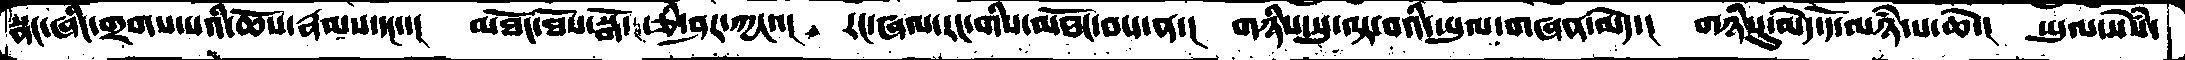སྣང་ཞིང་གྲགས་པའི་ཆོས་རྣམས་དང་་།  མཐོང་ཐོས་སྒོ་ང་ཅི་ཤར་ཀྱང་་།  རང་ཞལ་རང་གིས་མཐོང་བས་ན་།  གཉིས་སུ་ལྟ་བའི་ཡུལ་གཞན་མེད་།  གཉིསུ་མེད་དོ་མཉཾ་པ་ཆེ་།  ཡུལ་སེཾས་
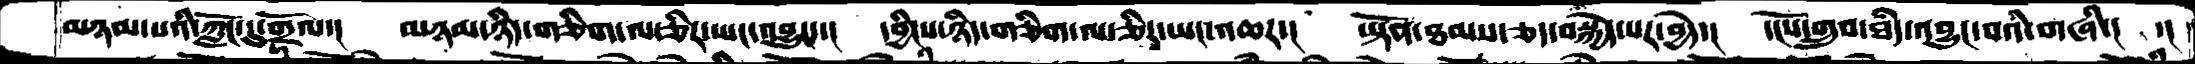མཉམ་པའི་ཀློང་དུ་གྲོལ་།  མཉམ་ཉིད་གཅིག་ལ་ཅིར་ཡང་འབྱུང་་།  དབྱིངས་ཉིད་གཅིག་ལ་ཅིར་ཡང་འཆར་།  ཡྟོན་ཐམས་ཅད་བསྐྱེད་པར་བྱེད་།  དངོས་གྲུབ་ཐཾད་འབྱུང་བའི་གཞི་།  ་།
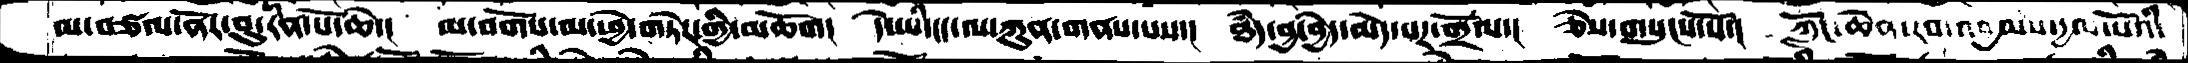མ་བཙལ་ནོར་བུ་རིན་པོ་ཆེ་།  མ་བགོས་མ་ཕྱེ་གཏེར་གྱི་མཆོག།  དེ་ཡི་ངང་ལ་ཀུན་གནས་པས་།  ཐཾད་བྱ་བྱེད་མེད་པར་གྲོལ་།  ཅེས་གསུངས་སོ་།  ཀློང་ཆེན་རབ་འབྱམས་དྱལ་པོའི་
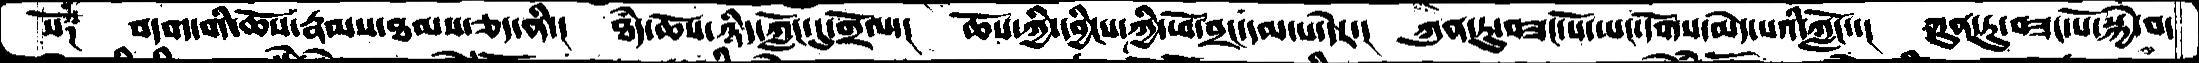སོ༑   བདག་གི་ཆོས་རྣམས་ཐམས་ཅད་ནི་།  ཐཾད་ཆོས་ཉིད་ཀློང་དུ་གྲོལ་།  ཆོས་ཀྱི་དབྱིངས་ཀྱི་ཕོ་བྲང་དམ་པ་དེར་།  ཀུན་ཏུ་བཟང་པོ་ཡང་དོགས་མེད་པའི་ཀློང་་།   ཀུན་ཏུ་བཟང་པོ་སྐྱེ་བ་
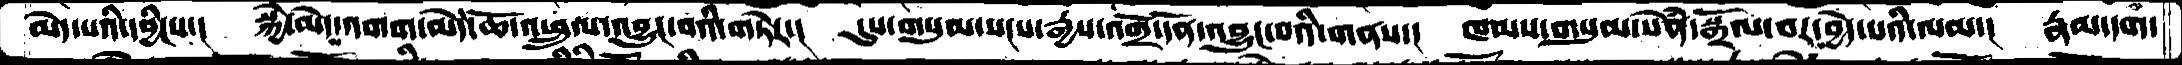མེད་པའི་དབྱིངས་།  སྐྱེ་མེད་འགག་མེད་ཆོ་འཕྲུལ་འབྱུང་བའི་གཏེར་།  དུས་གསུམ་སངས་རྒྱས་འགྲོ་དོན་འབྱུང་བའི་གནས་།  ཁམས་གསུམ་སེཾན་སྒྲོལ་བར་བྱེད་པའི་ལམ་།  རྣམ་དག་
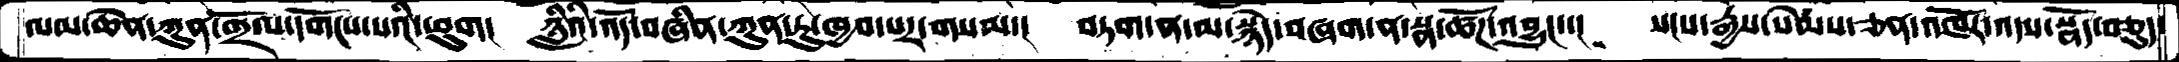ལམ་ཆེན་ཀུན་གྲོལ་དགོངས་པའི་ཕུག།  ཉླིའི་འོད་བཞིན་ཀུན་ཏུ་ཁྱབ་པར་གསལ་།  བཏག་ན་མ་སྙེད་བཞག་ན་སྣ་ཚོཌ་འབྱུང་་།  སངས་རྒྱས་སེམས་ཅན་འཁོར་འདས་སྣོད་བཅུད་
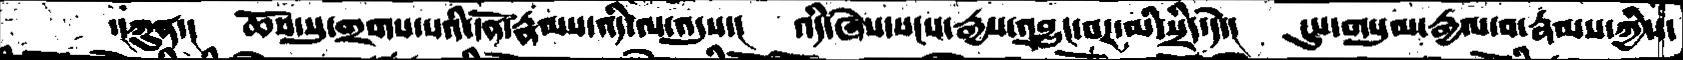་།ཀུན་།  ཆོས་སུ་གྲགས་པའི་དོན་རྣམས་འདི་ལ་འདུས་།  འདི་ཞེས་སངས་རྒྱས་འབྱུང་བར་མི་སྲིད་དེ་།  དུས་གསུམ་རྒྱལ་བ་རྣམས་ཀྱིས་
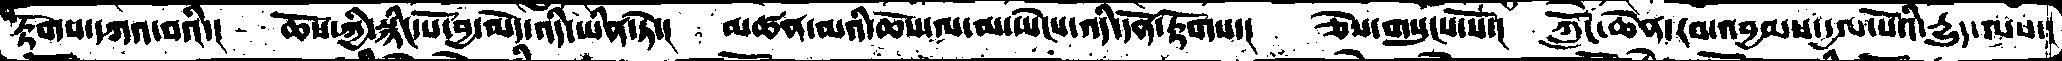རྟོགས་དཀའ་བའི་།  ཆོས་ཀྱི་སྙིང་པོ་བྱ་མེད་འདི་ཡིན་ཏེ་།  མཚན་མའི་ཆོས་ལ་མ་ཡེངས་འདི་དོན་རྟོགས་།  ཅེས་གསུངས་སོ་།  ཀློང་ཆེན་རབ་འབྱམས་དྱལ་པོའི་དྱུད་ལས་།
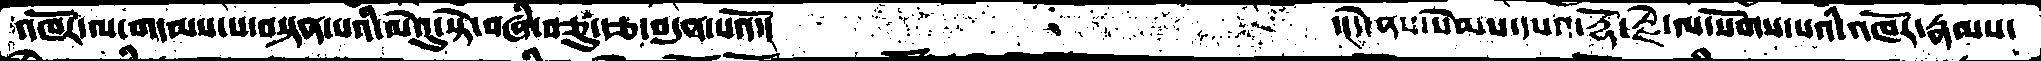འཁོར་ལ་གདམས་པ་བསྟན་པའི་ལེའུ་སྟེ་བཞི་བཅུ་རྩ་བདུན་པའོ་།              ་།དེ་ནས་སེམས་དཔའ་རྡོ་རྗེ་ལ་སོགས་པའི་འཁོར་རྣམས་
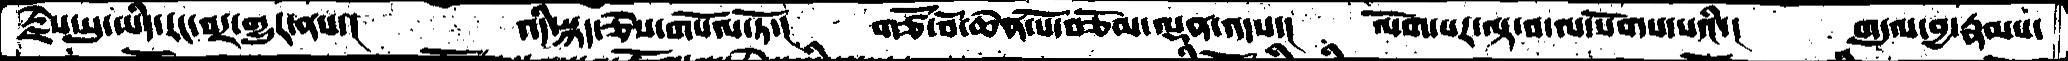རྗེས་སུ་ཡིད་རང་བར་གྱུར་ནས་།       འདི་སྐད་ཅེས་གསོལ་ཏོ་།  གཙོ་བོ་ཆེན་པོ་བཅོམ་ལྡན་འདས་།  ལོག་པར་ལྟ་བ་ལ་སོགས་པའི་།    གདུལ་བྱ་རྣམས་
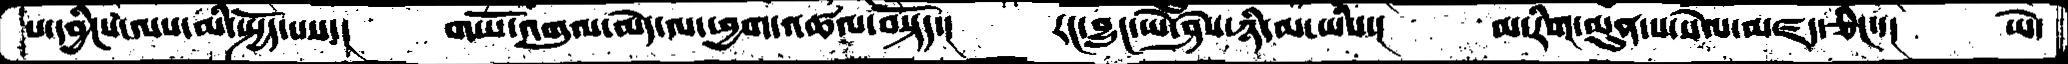པ་དབྱིངས་ལས་མི་སྤྱོད་པས་།  གཡོ་འགུལ་མེད་ལ་ཕྱག་འཚལ་བསྟོད་།   རང་བྱུང་ཡེ་ཤེས་ཉི་མ་ཡིས་།  མ་རིག་མུན་པ་སེལ་མཛད་ཅིང་་།    ཡེ་
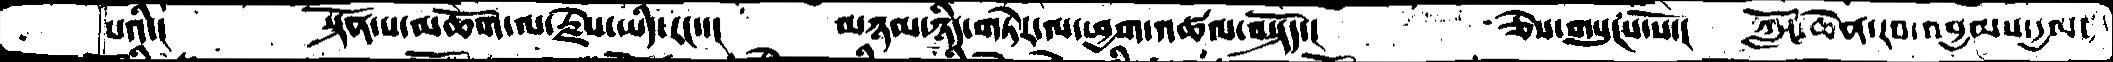པའི་།   སྟོན་པ་མཆོག་ལ་རྗེས་ཡིད་རང་་།   མཉམ་ཉིད་གཏེར་ལ་ཕྱག་འཚལ་བསྟོད་།      ཅེས་གསུངས་སོ་།   ཀློང་ཆེན་རབ་འབྱམས་དྱལ་
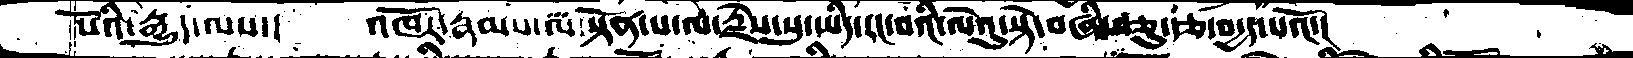པོའི་རྒྱུད་ལས་།   འཁོར་རྣམས་ལ་སྟོན་པ་ལ་རྗེས་སུ་ཡིད་རང་བའི་ལེའུ་སྟེ་བཞི་བཅུ་རྩ་བདྱད་པའོ་།
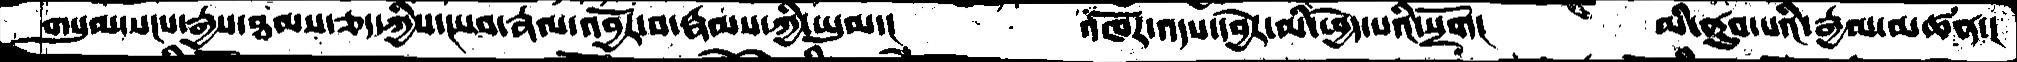གསུམ་སངས་རྒྱས་ཐམས་ཅད་ཀྱིས་ཡབ་རྣལ་འབྱོར་བ་རྣམས་ཀྱི་ཡུམ་།      འཁོར་འདས་དབྱེར་མི་ཕྱེད་པའི་སྲོག།     མི་ནུབ་པའི་རྒྱལ་མཚན་།
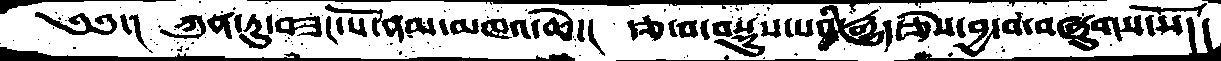༄༅་།   ཀུན་ཏུ་བཟང་པོ་ནམ་མཁའ་ཆེ་།   རྩ་བ་བསྡུས་པའི་རྒྱུད་ཅེས་བྱ་བ་བཞུགས་སོ།།།
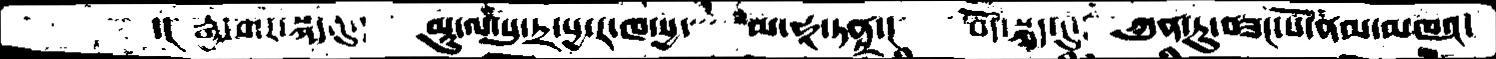་།  རྒྱ་གར་སྐད་དུ་།  མཱུ་ལ་སུ་ཏྲ་སྱ་ར་ཁ་སྱ་་་ མ་ཧཱ་ཏནྟྲ་།  བོད་སྐད་དུ་  ཀུན་ཏུ་བཟང་པོོ་ནམ་མཁའ་
